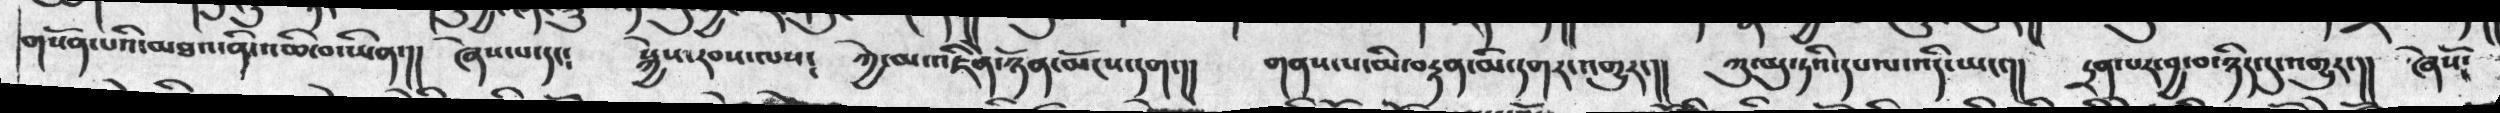གསོན་པའི་མཐའ་ནི་འཆི་བ་ཡིན་།།  ཞེས་པ་དང༴   སྐྱེས་རབས་ལས༴   ཀྱེ་མ་འཇིེན་ཉོན་མོངས་དག་།།   གནས་པ་མི་བརྟན་མི་དགར་འགྱུར་།།  ཀུ་མུ་ཏའི་དཔལ་འདི་ཡང་།།    དྲན་པར་བྱ་བ་ཉིད་དུ་འགྱུར་།།    ཞེསོ༴
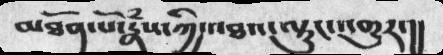མཐོན་པོ་རྣཾས་ཀྱི་འཐའ་ལྟུང་འགྱུར་།།
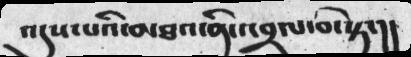འདུས་པའི་མཐའ་ནི་འབྲལ་བ་སྟེ་།།
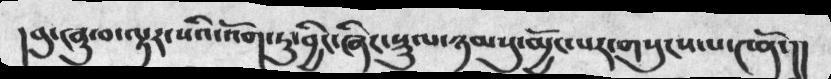དབུ་ཞུ་བ་ལྟར་སའི་འོག་ཏུ་བྱང་ཞིང་སྡུལ་ཉམསུ་མྱོང་པར་གསུངས་པ་༤ནོ་།།
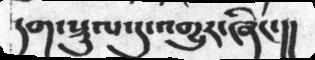དག་སྡུལ་དུ་འགྱུར་ཞིང་།།
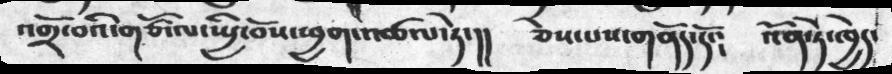འགྲོ་བའི་གཙོ་ལ་ཡྱི་བོས་ཕྱག་འཚལ་ཏེ་།།     ཅེས་པས་གནོད་དོ་།     འོན་ཏེ་ཁྱེད་
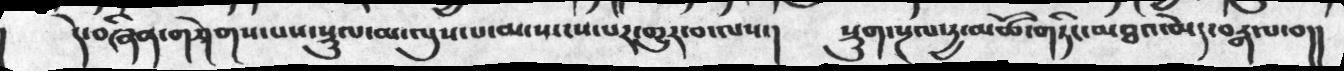དེ་བཞིན་གཤིགས་པས་སྡུལ་མ་ལུས་པ་མ་ཡངས་པར་གྱུར་བ་ལས་།  སྡུག་སྔལ་རྒྱ་མཚོ་གཏིང་མཐའ་མེད་བརྒལ་བ།།
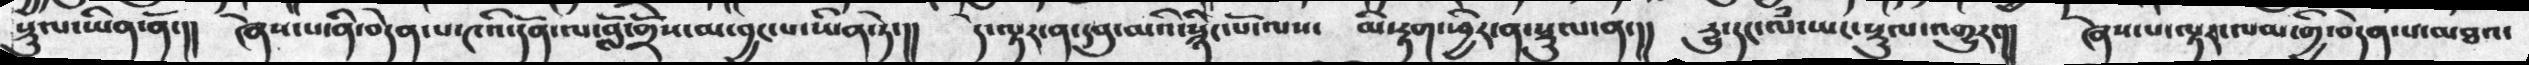སྡུལ་ཡིན་ནོ་།།   ཞེས་པ་ནི་བདེན་པ་༤འི་དོན་ལ་བློ་གྲོས་མ་བྱང་པ་ཡིན་ཏེ་།།  དེ་ལྟར་ན་དབུ་མའི་སྙིང་པོ་ལས་   མི་རྟག་ཕྱིར་ན་སྡུལ་ན་།།   རྒྱུ་དང་ལཾ་ཡང་སྡུལ་འགྱུར་།།    ཞེས་པ་ལྟར་ལམ་གྱི་བདེན་པ་མཐའ་
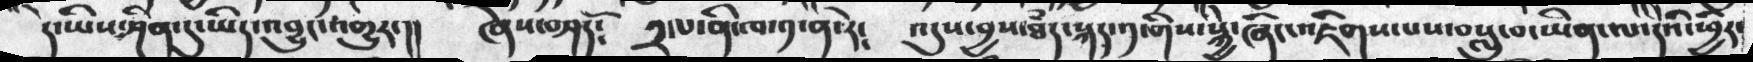དེ་ཡིས་ཤིན་དུ་ཡིད་འབྱུང་འགྱུར་།།     ཞེས་བཤདོ།  ༢་པ་ནི་ཁ་༡་ན་རེ༴    འདུས་བྱས་ཐདྃ་སྐད་༡་གིས་སྐྱེ་ཞིང་འཇིགས་པས་བསླུ་བ་ཡིན་ལ་དེའི་ཕྱིར་
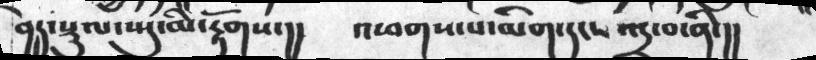བྱེད་སྡུལ་ཡུ་མི་རྟོགས་།།     འཕགས་པ་མིག་དང་འདྲ་བ་ནི་།།
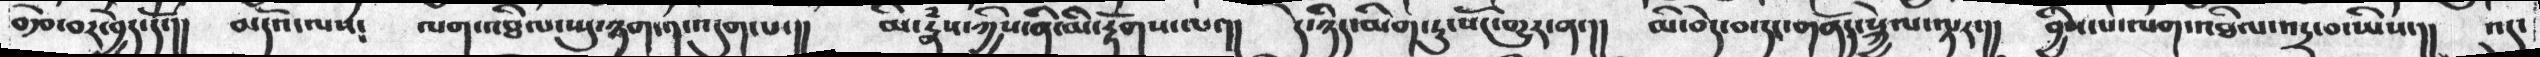བརྩེ་བར་བྱེད་དོ་།།  མདོའ་ལས༴   ལག་འཐིལ་ཡུ་ཉག་༡་འདུག་པ་།།  མི་རྣཾས་ཀྱིས་ནི་མི་རྟོགས་ལ་།།  དེ་ཉིད་མིག་ཏུ་སོང་གྱུར་ན་།།    མི་བེད་བ་དང་གནོད་སྐྱེལ་ལྟར་།།   བྱིས་པ་ལག་འཐིལ་འདྲ་བ་ཡིས་།།  འདུ་
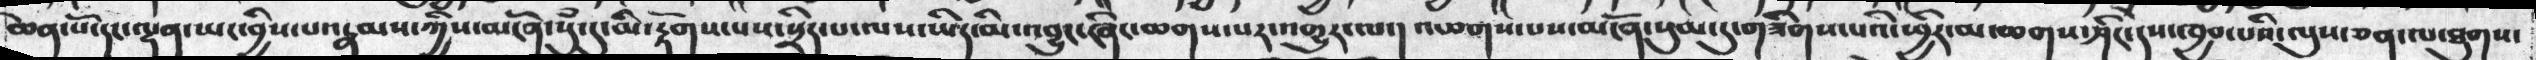ཆེན་པོ་དང་ལྡན་ཡང་བྱིས་པ་རྣམས་ཀྱིས་མངོན་སུཾ་དུ་རྟོགས་པས་སྲིད་པ་ལས་ཡིད་མི་འབྱུང་ཞིང་ཆགས་པར་འགྱུར་ལ་།  འཕགས་པས་མངོན་སུམ་དུ་གཟིགས་པའི་ཕྱིར་མ་ཆགས་ཤིང་དེས་ཁྱབ་པའི་ལུས་ཅན་ལ་ཐུགས་
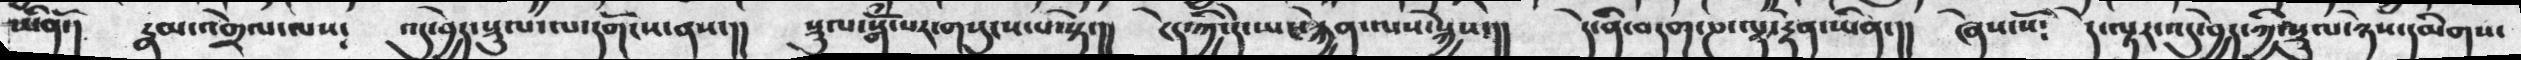ཡིནོ་།    རྣམ་འགྲེལ་ལས༴  འདུ་བྱེད་སྡུལ་ལ་དགོངས་ནས་།།   སྡུལ་སྒོཾ་པར་གསུངས་པ་སྟེ་།།   ངེད་ཀྱི་དེ་ཡང་རྐྱེན་ལས་སྐྱེས་།།    དེ་ནི་བདག་ཎ་ལྟ་རྟེན་ཡིན་།།  ཞེས་སོ༴  དེ་ལྟར་འདུ་བྱེད་ཀྱི་སྡུལ་ཉེས་དམིགས་
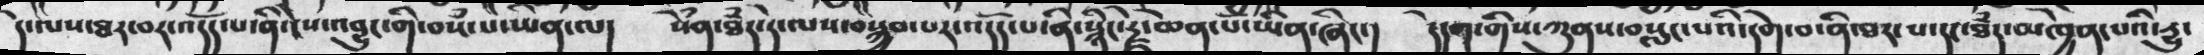དེ་ལས་ཐར་བར་འདོད་པ་ནི་ངེས་འབྱུང་གི་བསཾ་པ་ཡིན་ལ།   སེཾན་ཐཾད་དེ་ལས་བསྐྱབ་པར་འདོད་པ་ནི་སྙིང་རྗེ་ཆེན་པོ་ཡིན་ཞིང་།   དེདག་གིས་ཀུནས་བསླང་པའི་དགེ་བ་ནི་ཐར་པ་དང་ཐཾད་་མཁྱེན་པའི་རྒྱུ་
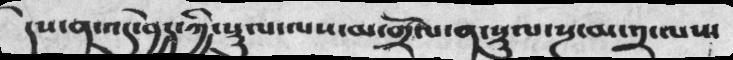དེས་ན་འདུ་བྱེད་ཀྱི་སྡུལ་ལས་མ་གྲོལ་ན་སྡུལ་སྔ་མ་༢་ལས་
